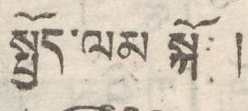སྤྱོད་ལམ སྐོར།
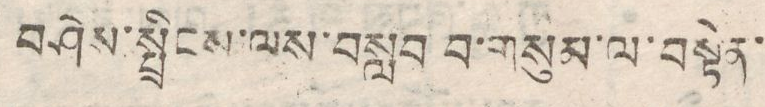བཤེས་སྤྲིངས་ལས་བསླབ བ་གསུམ་ལ་བསྟེན་
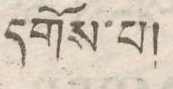དགོས་པ།
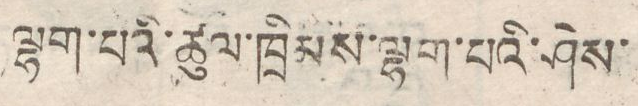ལྷག་པའི་ཚུལ་ཁྲིམས་ལྷག་པའི་ཤེས་
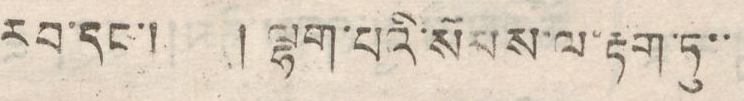རབ་དང་། །ལྷག་པའི་སེམས་ལ་རྟག་ཏུ་་
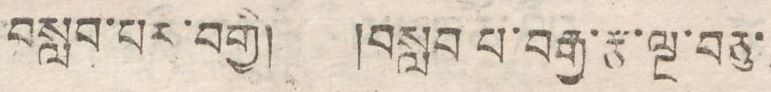བསླབ་པར་བགྱི། །བསླབ པ་བརྒྱ་རྩ་ལྔ་བཅུ་
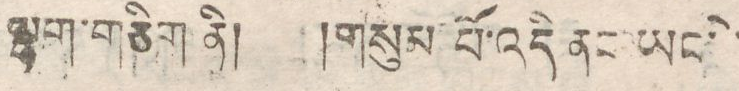ལྷག་གཅིག ནི། །གསུམ་པོ་འདི ནང་ཡང་དེ་
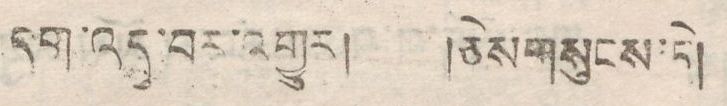དག་འདུ་བར་འགྱུར། །ཅེསགསུངས་ཏེ།
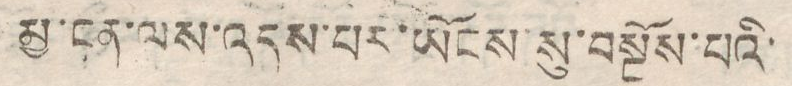མྱ་ངན་ལས་འདས་པར་ཡོངས་སུ་བསྔོས་པའི་
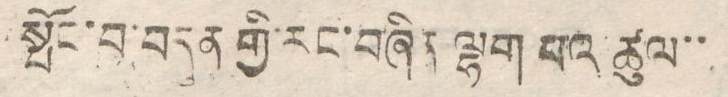སྤོང་བ་བདུན་གྱི་རང་བཞིན ལྷག་པའ ཚུལ་་
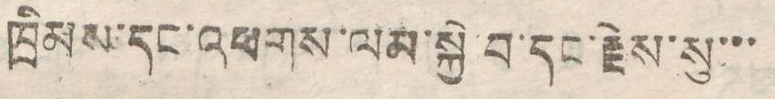ཁྲིམས་དང་འཕགས་ལམ་སྐྱེ་བ་དང་རྗེས་སུ་་
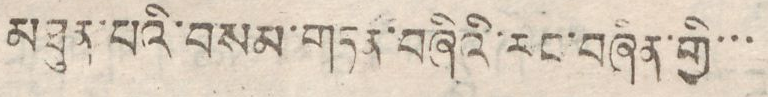མཐུན་པའི་བསམ་གཏན་བཞིའི་རང་བཞིན་གྱི་་་
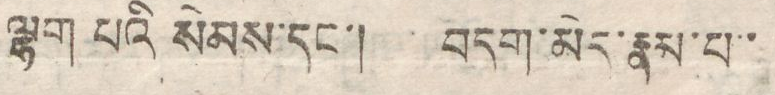ལྷག པའི སེམས་དང་། བདག་མེད་རྣམ་པ་
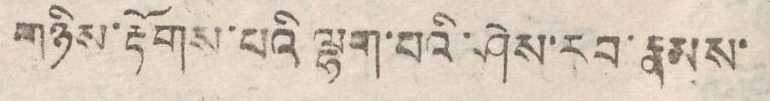གཉིས་རྟོགས་པའི་ལྷག་པའི་ཤེས་རབ་རྣམས་
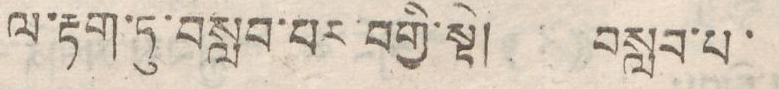ལ་རྟག་ཏུ་བསླབ་པར་བགྱི་སྟེ། བསླབ་པ་
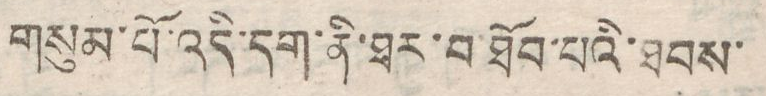གསུམ་པོ་འདི་དག་ནི་ཐར་བ་ཐོབ་པའི་ཐབས་
